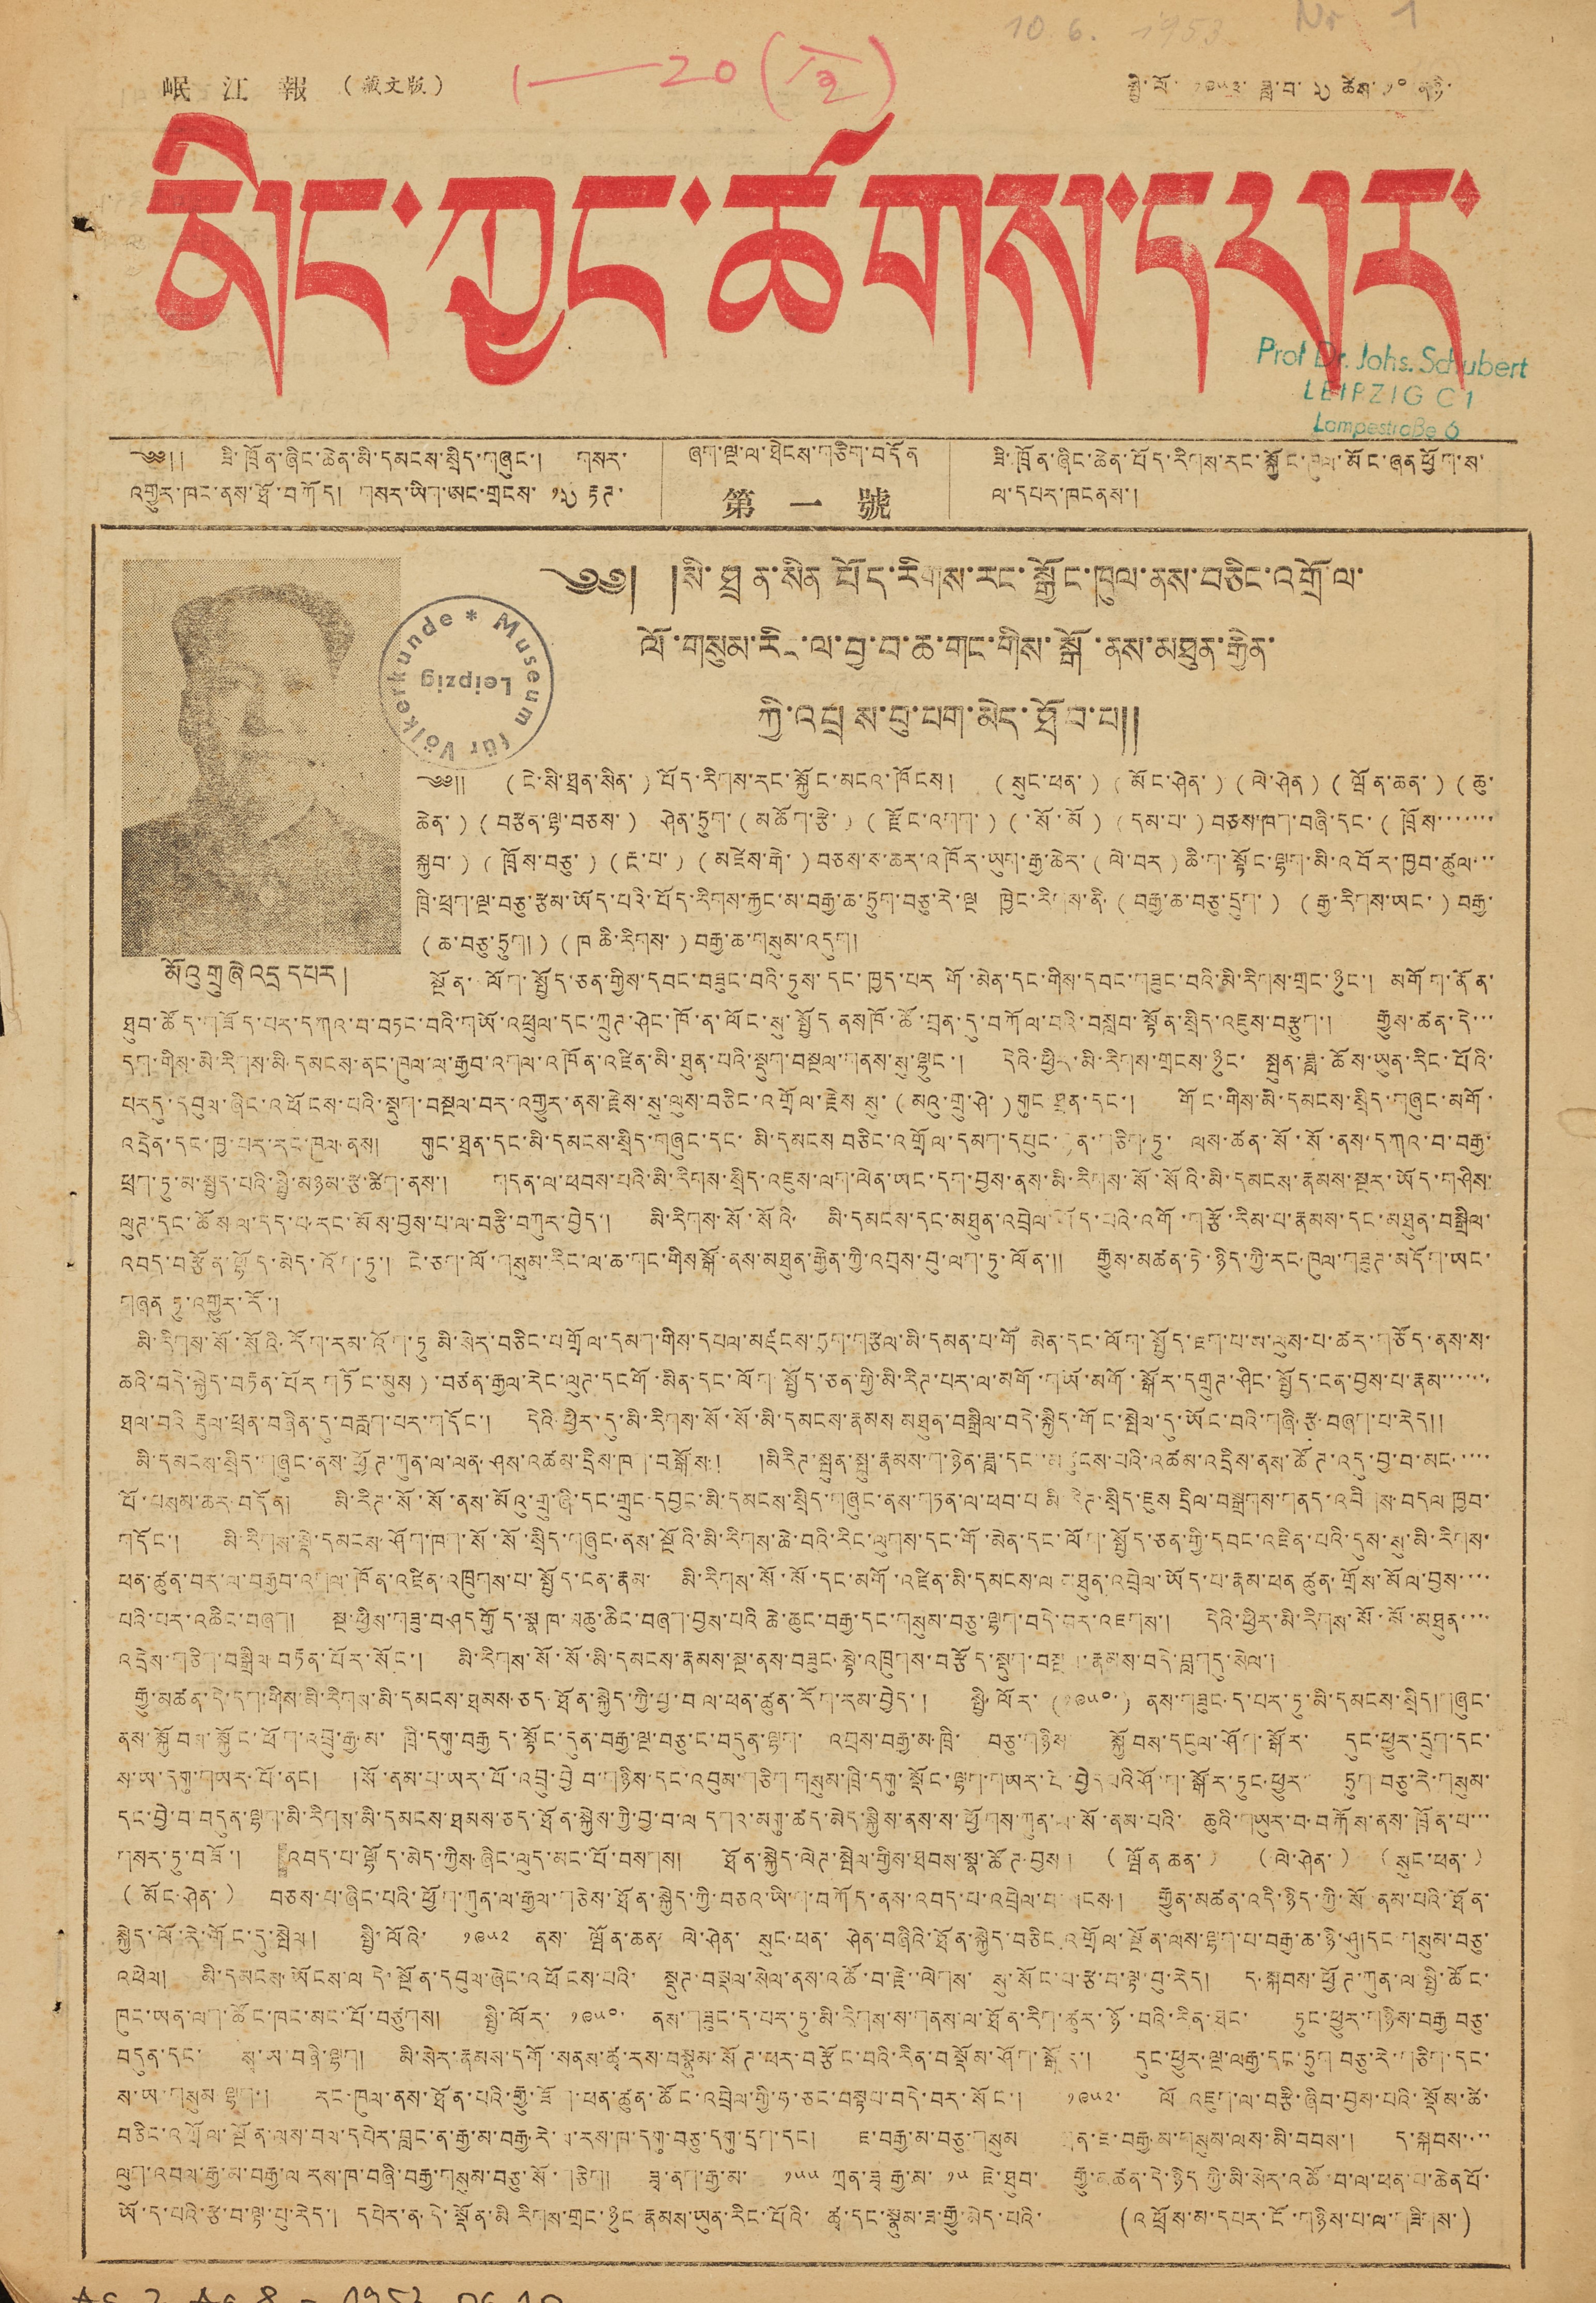岷 江 報 （藏文版） སྤྱི་ལོ་ ༡༩༥༣་ ཟླ་བ་ ༦ ཚེས ༡༠ ནཉི་
མིང་ཀྱང་ཚགས་དཔར་
༄༅། །སི་ཐྲན་སིན བོད་རིགས་རང་སྒྱོང་ཁུལ་ནས་བཅིང་འགྲོལ་
ལོ་གསུམ་རིང་ལ་བྱ་བ་ཆ་གང་གིས་སྒོ་ནས་མཐུན་རྒྱེན་
ཀྱི་འབྲས་བུ་པག་མེད་ཐོབ་པ༎
མོའུ གྲུ ཞེ འདྲ དཔར །
༄༅༎ ( ངེ་སི་ཐྲན་སིན་ ) བོད་རིགས་རང་སྐྱོང་མངའ་ཁོངས། ( སུང་ཕན་ ) ( མོང་ཤེན་ ) ( ལེ་ཤེན ) ( ཝོན་ཆན་ ) ( ཆུ་
ཆེན་ ) ( བརྩན་ལྷ་བཅས་ ) ཤེན་ཏྲུག་ ( མཆོག་རྩེ་ ) ( རྫོང་འགག་ ) ( ་སོ་མོ ) ( དམ་པ་ ) བཅས་ཁག་བཞི་དང་ ( ཁྲོས་་་་་་་
སྐྱབ་ ) ( ཁྲོས་བཅུ་ ) ( རྔ་པ་ ) ( མཛེས་རྒེ་ ) བཅས་ས་ཆར་འཁོར་ཡུག་རྒྱ་ཆེར་ ( ལེ་བར་ ) ཆི་ག་སྟོང་ལྷག་མི་འབོར་ཁྱབ་ཚུལ་་་
ཁྲི་ཕྲག་ལྔ་བཅུ་རྩམ་ཡོད་པའི་བོད་རིགས་རྐྱང་མ་བརྒྱ་ཆ་ཏྲུག་བཅུ་རེ་ལྔ ཁྱེང་རིགས་ནི་ ( བརྒྱ་ཆ་བཅུ་དྲུག་ ) ( རྒྱ་རིགས་ཡང་ ) བརྒྱ་
( ཆ་བཅུ་ཏྲུག། ) ( ཁ ཆི་རིགས་ ) བརྒྱ་ཆ་གསུམ་འདུག།
སྔོན་ལོག་སྤྱོད་ཅན་གྱིས་དབང་བཟུང་བའི་ཏུས་དང་ཁྱད་པར གོ་མེད་དང་གིས་དབང་གཟུང་བའི་མི་རིགས་གྲང་ཉུང་། མགོག་ནོན་
ཐུབ་ཚོད་གཟོད་པར་དཀའ་བ་བཏང་བའི་གཡོ་འཕྲུལ་དང་ཀྲུཊ་ཤེང་ཁོ་ན་ལོང་སུ་སྤྱོད ནས ཁོ་ཚོ་བྲན་དུ་བཀོལ་བའི་བསླབ་སྟོན་སྲིད་འཇུས་བརྩུག་། རྒྱུས་ཚན་དེ་་་
དག་གིས་མི་རིགས་མི དམངས་ནང་ཁུལ་ལ་རྒྱབ་འགལ་འཁོན་འཛིན་མི་ཐུན་པའི་སྡུག་བསྔལ་གནས་སུ་ལྷུང་། དེའི་ཕྱིར་མི་རིགས་གྲངས་ཉུང་ སྤུན་ཟླ་ཆོས་ཡུན་རིང་པོའི་
པརདུ་དབུལ་ཞིང་འཕོངས་པའི་སྡུག་བསྔལ་བར་འགྱུར་ནས་རྗེས་སུ་ལུས་བཅིང་འགྲོལ་རྗེས སུ་ ( མའུ་གྲུ་ཤེ་ ) གུང ཐྲན་དང་། གོང་གིས་མི་དམངས་སྲིད་གཞུང་མགོ་
འདྲེན་དང་ཁྱ་པར་རང་ཁུལ་ནས། གུང་ཐྲན་དང་མི་དམངས་སྲིད་གཞུང་དང་ མི་དམངས བཅིང་འགྲོལ་དམག་དཔུང་རྟན་གཅིག་ཏུ་ ལས་ཚན་སོ་སོ་ནས་དཀའ་བ་བརྒྱ་
ཕྲག་ཏུ་མསྤྱད་པའི་སྤྱི་མཉམ་རྩ་ཚིག་ནས་། གདན་ལ་ཕབས་པའི་མི་རིགས་སྲིད་འཇུས་ལག་ལེན་ཡང་དག་བྱས་ནས་མི་རིགས་སོ་སོའི་མི་དམངས་རྣམས་སྔར་ཡོད་གཤིས་
ལུཊ་དང་ཆོས ལ་དད་པ་རང་མོས་བྱས་པ་ལ་བརྩི་བཀུར་བྱེད། མི་རིགས་སོ་སོའི་ མི་དམངས་དང་མཐུན་འབྲེལ་ཡོད་པའི་འགོ་གརྩོ་རིམ་པ་རྣམས་དང་མཐུན་བསྒྲིལ་
འབད་བརྩོན་ལྷོད་མེད་འོག་ཏུ་། ངེ་ཅག་ལོ་གསུམ་རིང་ལ་ཆ་གང་གིས སྒོ་ནས་མཐུན་རྒྱེན་ཀྱི་འབྲས་བུ་ལག་ཏུ་ལོང་༎ རྒྱུས་མཚན་ཏེ་ཉིད་ཀྱི་རང་ཁུལ་གཟུཊ་མདོག་ཡང་
གཞན ཏུ་འགྱུར་རོ་།
མི་རིགས་སོ་སོའི་རོག་རམ་འོག་ཏུ མི་སེར་བཅིང་བགྲོལ་དམག་གིས་དཔལ་མཛངས་ཏྲག་གརྩལ་མི་དམན་པ་གོ མེན་དང་ལོག་སྤྱོད་ཇག་པ་མ་ལུས་པ་ཚར་གཙོད་ནས་ས་
ཆའི་བདེ་སྐྱེད་བརྟན་པོར གཏོང་མུས )་བཙན་རྒྱལ་རེང་ལུཊ་དངགོ་མིན་དང་ལོག་སྤྱོད་ཅན་གྱི་མི་རིཊ་པར་ལ་མགོ་གཡོ་མགོ་སྒོར་དགྲུཊ་ཤིང་སྤྱོད་ངན་བྱས་པ་རྣམ་་་་་་་
ཐལ་བའི རྡུལ་ཕྲན་བཞིན་དུ་བརླག་པར་གདོང་། དེའི་ཕྱིར་དུ་མི་རིགས་སོ་སོ་མི་དམངས་རྣམས མཐུན་བསྒྲིལ་བདེ་སྐྱིད་གོང་སྤེལ་དུ་ཡོང་བའི་གཞི་རྩ་བཞག་པ་རེད༎
མི་དམངས་སྲིད་གཞུང་ནས་ཕྱོཊ་ཀུན་ལ་ལན་ཤས་འཚམ་དྲིས་ཁག་བསྒོས་། མི རིཊ་སྤུན་སྤུ་རྣམས་ག་ཉེན་ཟླ་དང་མཚུངས་པའི་འཚམ་འདྲིས་ནས་ཚོཊ་འདུ་བྱ་བ་མང་་་་་
པོ་བསམ་ཆར་བདོན། མི་རིཊ་སོ་སོ་ནས་མོའུ་གྲུ་ཞི་དང་གྲུང་དབྱང་མི་དམངས་སྲིད་གཞུང་ནས་གཏན་ལ་ཕབ་པ མི་རིཊ་སྲིད་ཇུས དྲིལ་བསྒྲགས་གནད་འབིགས་བདལ ཁྱབ་
གདོང་། མི་རིགས་སྡེ་དམངས་ཤོག་ཁག་སོ་སོ་སྲིད་གཞུང་ནས་སྔོའི་མི་རིགས་ཆེ་བའི་རིང་ལུགས་དང་གོ་མེན་དང་ལོག་སྤྱོད་ཅན་གྱི་དབང་འཛིན་པའི་དུས་སུ་མི་རིགས་
ཕན་ཚུན་བར་ལ་བརྒྱབ་འགལ་ཁོན་འཛིན་འཁྲུགས་པ་སྤྱོད་ངན་རྣམ་ མི་རིགས་སོ་སོ་དང་མགོ་འཛིན་མི་དམངས་ལ མཐུན་འབྲེལ་ཡོད་པ་རྣམ་ཕན ཚུན་གྲོས་མོལ་བྱས་་་་
པའི་པར་འཆིང་བཞག། སྔ་ཕྱིས་གཟུ་བཤད གྱོད་སྣ ཁ་མཆུ་ཆིང་བཞག་བྱས་པའི ཆེ་ཆུང་བརྒྱ་དང་གསུམ་བཅུ་ལྷག་བདེ་བར་འཇགས་། དེའི་ཕྱིར་མི་རིགས་སོ་སོ་མཐུན་་་་
འདྲེས་གཅིག་བསྒྲིལ བརྟན་པོར་སོང་། མི་རིགས་སོ་སོ་མི་དམངས་རྣམས་སྔ་ནས་བཟུང་སྟེ་འཁྲུགས་བརྩོད་སྡུག་བསྔལ་རྣམས་བདེ་གླགདུ་སེལ་།
རྒྱུ་མཚན་དེ་དག་གིས་མི་རིགས་མི་དམངས་ཐམས་ཅད་ཐོན་སྐྱེད་ཀྱི་བྱ་བ ལ་ཕན་ཚུན་རོག་རམ་བྱེད་། སྤྱི་ལོར་ (༡༩༥༠་) ནས་གཞུང་ད་པར་ཏུ་མི་དམངས་སྲིད།གཞུང་
ནས་སྐྱོབས་སྐྱོང་ཕོག་འབྲུ་རྒྱ་མ་ ཁྲི་དགུ་བརྒྱ ད་སྟོང་དུན་བརྒྱ་ལྔ་བཅུ་ང་བདུན་ལྷག་ འབྲས་བརྒྱ་མ་ཁྲི་ བཅུ་གཉིས་ སྐྱོབས་དངུལ་ཤོག་སྒོར་ དུང་ཕྱུར་དྲུག་དང་
ས་ཡ་དགུ་གཡར་པོ་ནང། །སོ་ནམ་པ་ཡར་པོ་འབྲུ་བྱེ བ་གཉིས་དང་འབུམ་གཅིག གསུམ་ཁྲི་དགུ་སྡོང་ལྷག་གཡར་བེ་བྱེད པའི ཤོ་ག་སྒོར་ཏུང་ཕྱུར་ ཏྲུག་བཅུ་རེ་གསུམ་
དང་བྱེ་བ་བདུན་ལྷག་མི་རིགས་མི་དམངས་ཐམས་ཅད་ཐོན་སྐྱེས་ཀྱི་བྱ་བ་ལ དགའ་མགུ་ཚད་མེད་སྐྱིས་ནས་ས་ཕྱོགས་ཀུན་ལ་སོ་ནམ་པའི་ ཆུའི་གཡུར་བ་བརྐོས་ནས་ཁྲོན་པ་་་
གསར་ཏུ་བཟོ་། འབད་པ་ལྷོད་མེད་ཀྱིས་ཞིང་ལུད་མང་པོ་བསགས། ཐོན་སྐྱེད་ལེཊ་སྤེལ་གྱིས་ཐབས་སྣ་ཚོཊ་བྱས། ( ཝོན ཆན་ ) ( ལེ་ཤེན་ ) ( སུང་ཕན་ )
( མོང་ཤེན་ ) བཅས་པ་ཞིང་པའི་ཕྱོག་ཀུན་ལ་རྒྱལ་གཅེས་ཐོན་སྐྱེད་ཀྱི་བཅའ་ཡི་ག་བཀོད་ནས་འབད་པ་འབྲེལ་བ་ལངས། རྒྱུན་མཚན་འདི་ཉིད་ཀྱི་སོ་ནམ་པའི་ཐོན་
སྐྱེད་ལོ་རེ་གོང་དུ་སྤེལ ། སྤྱི་ལོའི་ ༡༩༥༢ ནས་ ཝོན་ཆན་ ལེ་ཤེན་ སུང་ཕན་ ཤེན་བཞིའི་ཐོན་སྐྱེད་བཅིང འགྲོལ་སྔོན་ལས་ལྷག་པ་བརྒྱ་ཆ་ཉུ་ཤུ།དང་གསུམ་བཅུ་
འཕེལ། མི་དམངས་ཡོངས་ལ དེ་སྔོན་དབུལ་ཞེང་འཕྱོངས་པའི་ སྡུཊ་བསྔལ་སེལ་ནས་འཚོ་བ་རྗེ་་ལེགས་ སུ་སོང་བ་རྩ་བ་ལྟ་བུ་རེད། ད་སྐབས་ཕྱོཊ་ཀུན་ལ་སྤྱི་ཚོང་
ཁུང་ཡན་ལག་ཚོང་ཁང་མང་པོ་བཙུགས། སྤྱི་ལོར་ ༡༩༥༠་ ནས་གཟུང་ད་པར་ཏུ་མི་རིགས་ས་གནས་ལ་ཐོན་རིག་ཚུར་ཉོ་བའི་རིན་ཐང་ ཏུང་ཕྱུར་གཉིས་བརྒྱ བཅུ་
བདུན་དང་ སྭ་ཡ་བཞི་ལྷག། མི་སེར་རྣམས་དགོ་སནས་ཚྭ་རས་བསྣུམ་སོཊ་ཕར་བརྩོང་བའི་རིན་བསྡོམ་ཤོག་སྒོར་། དུང་ཕྱུར་ལྔ་ལརྒྱ་དང་ཏྲུག བཅུ་རེ་གཅིག་དང་
ས་ཡ་གསུམ ལྷག་། རང་ཁུལ་ནས་ཐོན་པའི་རྒྱུ་ཟོག་ཕན་ཚུན་ཚོང་འབྲེལ་གྱི་ཧ་ཅང་བསྟབ་བདེ་བར་སོང་། ༡༩༥༢་ ལོ འཇུག་ལ་བརྩི་ཞིབ་བྱས་པའི་སྡོམ་ཚེ་
བཅིང་འཀྲོལ་སྔོན་ལས་བལ་དཔེར་བླང་ན་རྒྱ་མ་བརྒྱ་རེ་ལ་རས་ཁ་དགུ་བཅུ་དགུ་དྲག་དང་། ཇ་བརྒྱ་མ་བཅུ་གསུམ ཀྲན་ཇ་བརྒྱ་མ་གསུམ་ལས་མི་བབས་། ད་སྐབས་་་་
ལུག་འབལ་རྒྱ་མ་བརྒྱ་ལ རས་ཁ་བཞི་བརྒྱ་གསུམ་བཅུ་སོ་གཅིག། ཟྭ་ནག་རྒྱ་མ་ ༡༥༥ ཀྲན་ཟྭ རྒྱ་མ་ ༡༥ ཇེ་ཐུབ་ རྒྱུ་མཚན་དེ་ཉིད ཀྱི་མི་སེར་འཚོ་བ་ལ་ཕན་པ་ཆེནཔོ་
ཡོ་ད་པའི་རྩ་བ་ལྟ་བུ་རེད་། དཔེར་ན་དེ་སྡོན་མི རིགས་གྲང་ཉུང རྣམས་ཡུན་རིང་པོའི་ ཚྭ་དང་སྣུམ་ཟ་རྒྱུ་མེད་པའི་ (འཕྲོས་མ་དཔར་ངོ་གཉིས་པ་ལ་གཟིགས་)
